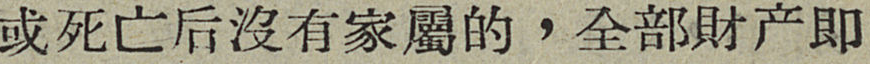或死亡后沒有家屬的，全部財产即
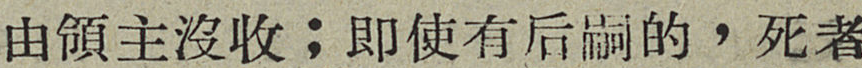由領主沒收；即使有后嗣的，死者
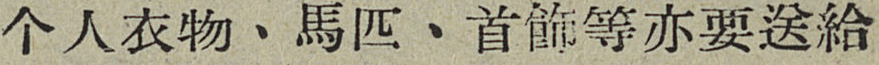个人衣物、馬匹、首飾等亦要送給
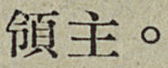領主。
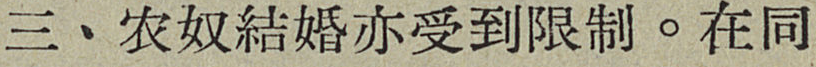三、农奴結婚亦受到限制。在同
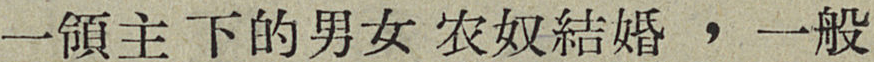一領主下的男女农奴結婚，一般
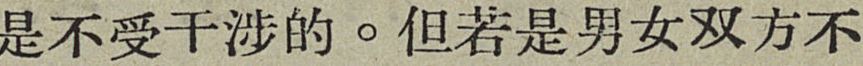是不受干涉的。但若是男女双方不
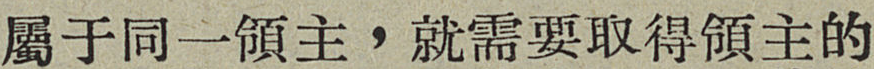屬于同一領主，就需要取得領主的
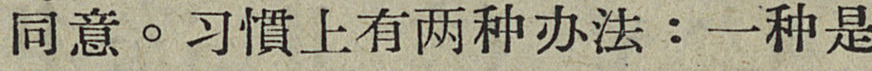同意。习慣上有两种办法：一种是
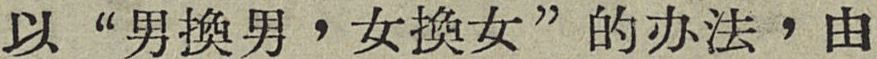以“男換男，女換女”的办法，由
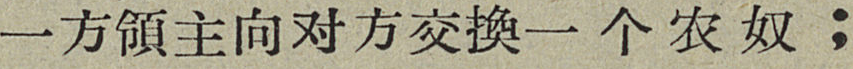一方領主向对方交換一个农奴；
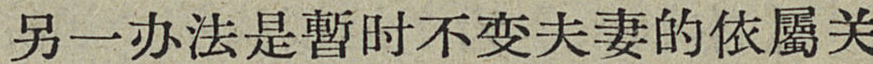另一办法是暫時不变夫妻的依屬关
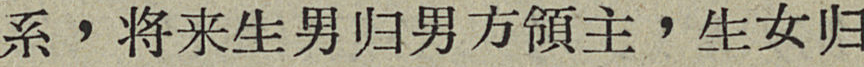系，将来生男归男方領主，生女归
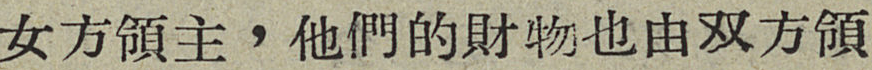女方領主，他們的財物也由双方領
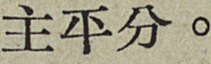主平分。
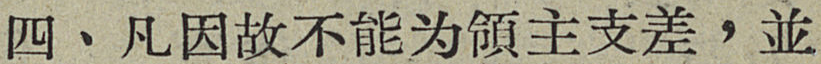四、凡因故不能为領主支差，並
